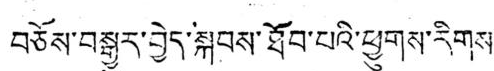བཅོས་བསྒྱུར་བྱེད་སྐབས་ཐོབ་པའི་ཕྱུགས་རིགས་
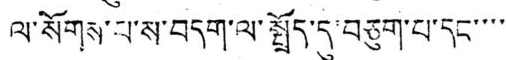ལ་སོགས་པ་ས་བདག་ལ་སྤྲོད་དུ་བཅུག་པ་དང་་་་
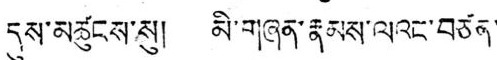དུས་མཚུངས་སུ། མི་གཞན་རྣམས་ལའང་བཙན་
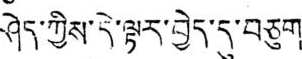ཤེད་ཀྱིས་དེ་ལྟར་བྱེད་དུ་བཅུག
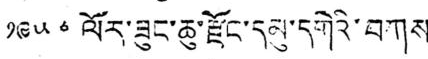༡༩༥༦ ལོར་ཟུང་ཆུ་རྫོང་དམུ་དགེའི་བཀས
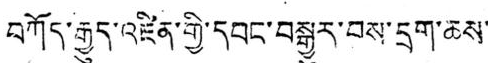བཀོད་རྒྱུད་འཛིན་གྱི་དབང་བསྒྱུར་བས་དྲག་ཆས་་
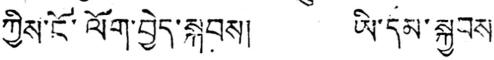ཀྱིས་ངོ་ལོག་བྱེད་སྐབས། ཡི་དམ་སྐྱབས་
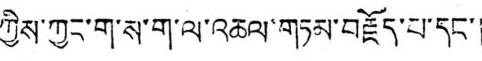ཀྱིས་ཀྱང་ག་ས་ག་ལ་འཆལ་གཏམ་བརྗོད་པ་དང་།
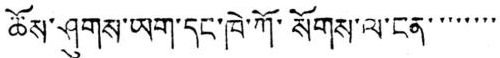ཆོས་ཤུགས་ཡག་དང་ཁེ་ཀོ་སོགས་ལ་ངན་་་་་་་་་
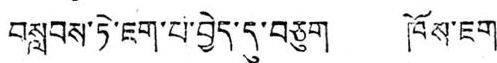བསླབས་ཏེ་ཇག་པ་བྱེད་དུ་བཅུག ཁོས་ཇག་
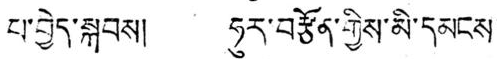པ་བྱེད་སྐབས། ཧུར་བརྩོན་གྱིས་མི་དམངས་
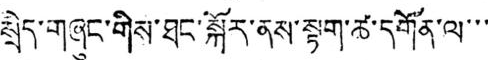སྲིད་གཞུང་གིས་ཐང་སྐོར་ནས་སྟག་ཚ་དགོན་ལ་་་་
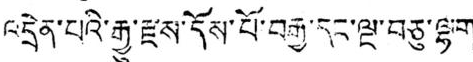འདྲེན་པའི་རྒྱུ་རྫས་དོས་པོ་བརྒྱ་དང་ལྔ་བཅུ་ལྷག་་་
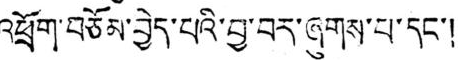འཕྲོག་བཅོམ་བྱེད་པའི་བྱ་བར་ཞུགས་པ་དང་།
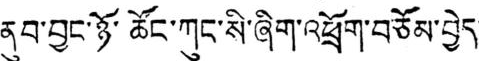ནུབ་བྱང་ཉོ་ཚོང་ཀུང་སི་ཞིག་འཕྲོག་བཅོམ་བྱེད་་
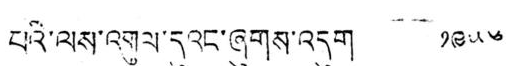པའི་ལས་འགུལ་དུའང་ཞུགས་འདུག ༡༩༥༦
